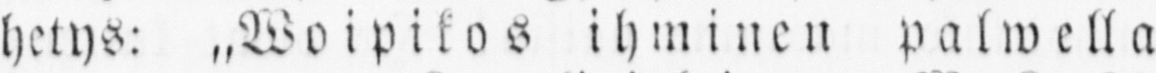hetys: „Woipikos ihminen palwella
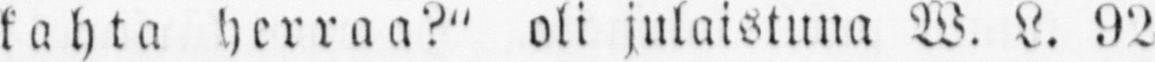kahta herraa?" oli julaistuna W. L. 92
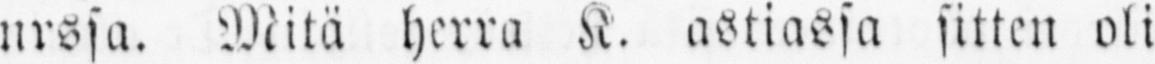nrssa. Mitä herra K. astiassa sitten oli
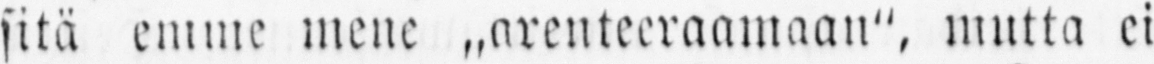sitä emme mene „arenteeraamaan", mutta ei
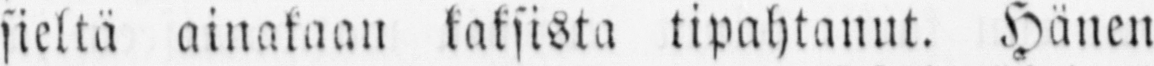sieltä ainakaan kaksista tipahtanut. Hänen
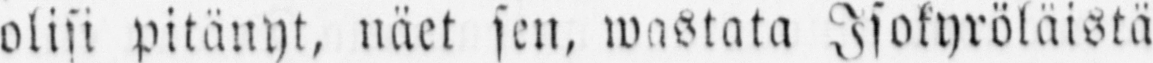olisi pitänyt, näet sen, wastata Isokyröläistä
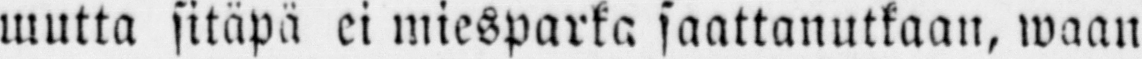mutta sitäpä ei miesparka saattanutkaan, waan
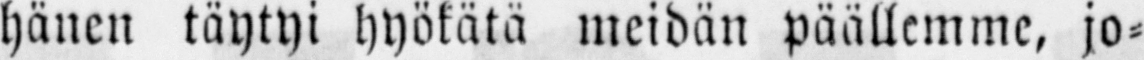hänen täytyi hyökätä meidän päällemme, jo-
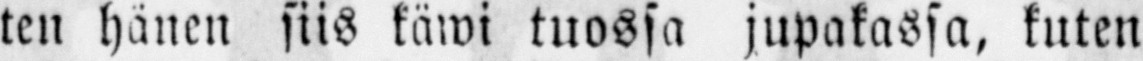ten hänen siis käwi tuossa jupakassa, kuten
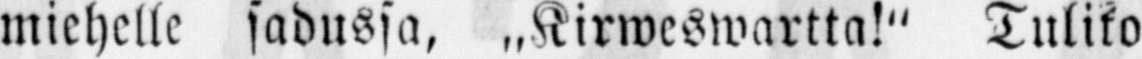miehelle sadussa, „Kirweswartta!" Tuliko
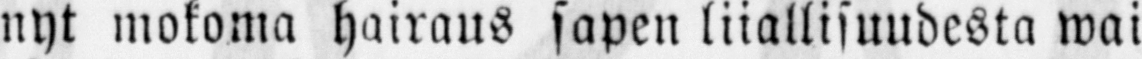nyt mokoma hairaus sapen liiallisuudesta wai
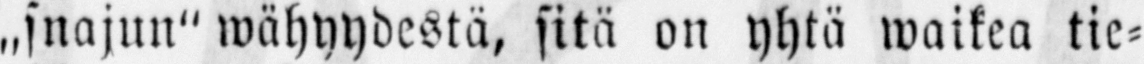„snajun" wähyydestä, sitä on yhtä waikea tie-
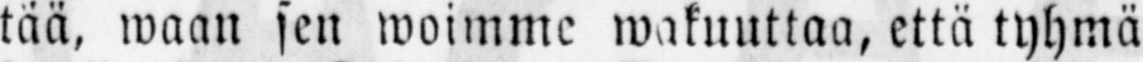tää, waan sen woimme wakuuttaa, että tyhmä
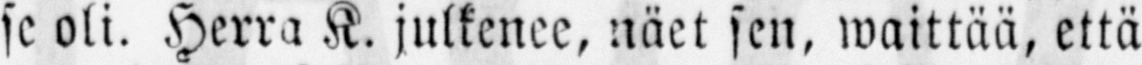se oli. Herra K. julkenee, näet sen, waittää, että
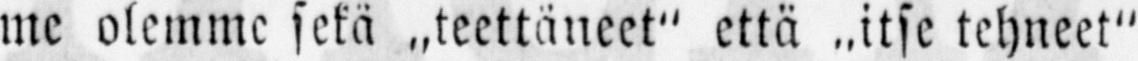me olemme sekä teettäneet" että „itse tehneet"
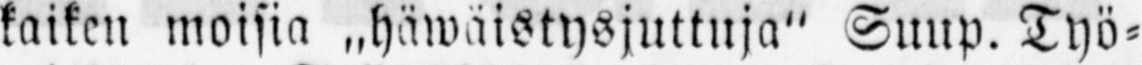kaiken moisia „häwäistysjuttuja" Suup. Työ-
